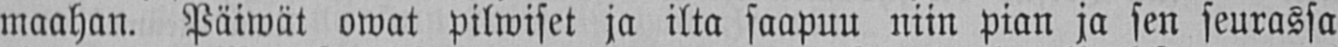maahan. Päiwät owat pilwiset ja ilta saapuu niin pian ja sen seurassa
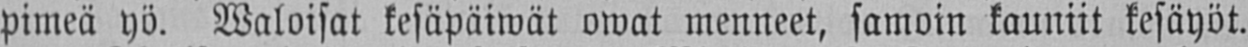pimeä yö. Wakoisat kesäpäiwät owat menneet, samoin kauniit kesäyöt.
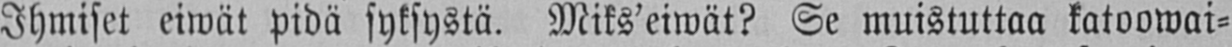Ihmiset eiwät pidä syksystä. Miks'eiwät? Se muistuttaa katoowai-
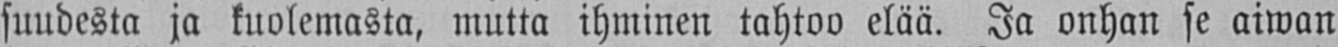suudesta ja kuolemasta, mutta ihminen tahtoo elää. Ja onhan se aiwan
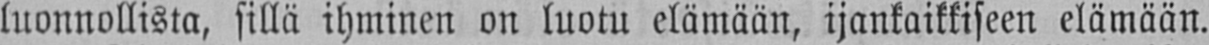luonnollista, sillä ihminen on luotu elämään, ijankaikkiseen elämään.
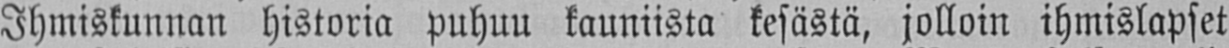Ihmiskunnan historia puhuu kauniista kesästä, jolloin ihmislapset
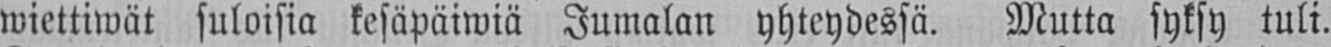wiettiwät suloisia kesäpäiwiä Jumalan yhteydessä. Mutta syksy tuli.
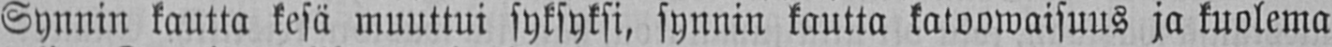Synnin kautta kesä muuttui syksyksi, synnin kautta katoowaisuus ja kuolema
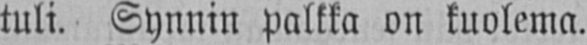tuli. Synnin palkka on kuolema.
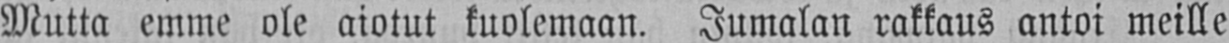Mutta emme ole aiotut kuolemaan. Jumalan rakkaus antoi meille
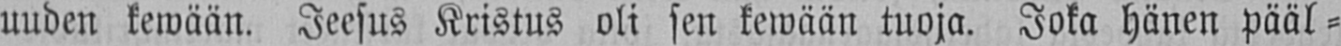uuden kewään. Jeesus Kristus oli sen kewään tuoja. Joka hänen pääl-
